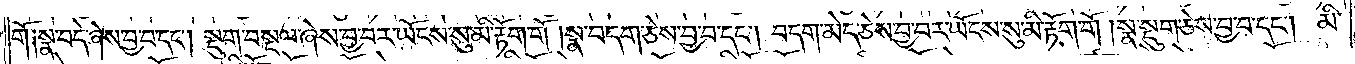གོ ༑སྣ་བདེ་ཞེས་བྱ་བ་དང༌། སྡུག་བསྔལ་ཞེས་བྱ་བར་ཡོངས་སུ་མི་རྟོག་གོ །སྣ་བདག་ཅེས་བྱ་བ་དང༌། བདག་མེད་ཅེས་བྱ་བར་ཡོངས་སུ་མི་རྟོག་གོ་༑སྣ་སྡུག་ཅེས་བྱ་བ་དང༌། མི་
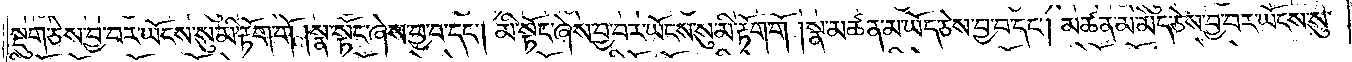སྡུག་ཅེས་བྱ་བར་ཡོངས་སུ་མི་རྟོག་གོ །སྣ་སྟོང་ཞེས་བྱ་བ་དང༌། མི་སྟོང་ཞེས་བྱ་བར་ཡོངས་སུ་མི་རྟོག་གོ །སྣ་མཚན་མ་ཡོད་ཅེས་བྱ་བ་དང༌། མཚན་མ་མེད་ཅེས་བྱ་བར་ཡོངས་སུ་
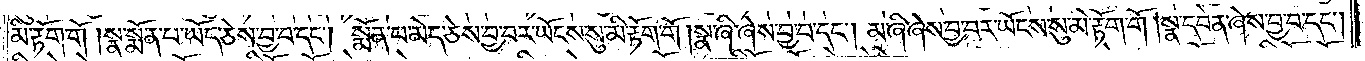མི་རྟོག་གོ །སྣ་སྨོན་པ་ཡོད་ཅེས་བྱ་བ་དང༌། སྨོན་པ་མེད་ཅེས་བྱ་བར་ཡོངས་སུ་མི་རྟོག་གོ །སྣ་ཞི་ཞེས་བྱ་བ་དང༌། མ་ཞི་ཞེས་བྱ་བར་ཡོངས་སུ་མི་རྟོག་གོ །སྣ་དབེན་ཞེས་བྱ་བ་དང་
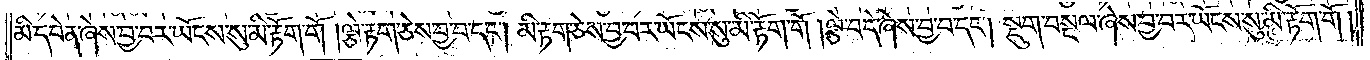མི་དབེན་ཞེས་བྱ་བར་ཡོངས་སུ་མི་རྟོག་གོ །ལྕེ་རྟག་ཅེས་བྱ་བ་དང༌། མི་རྟག་ཅེས་བྱ་བར་ཡོངས་སུ་མི་རྟོག་གོ །ལྕེ་བདེ་ཞེས་བྱ་བ་དང༌། སྡུག་བསྔལ་ཞེས་བྱ་བར་ཡོངས་སུ་མི་རྟོག་གོ།
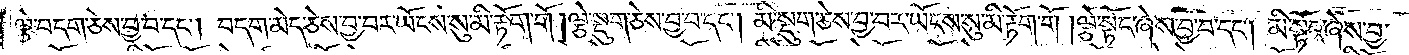ལྕེ་བདག་ཅེས་བྱ་བ་དང༌། བདག་མེད་ཅེས་བྱ་བར་ཡོངས་སུ་མི་རྟོག་གོ །ལྕེ་སྡུག་ཅེས་བྱ་བ་དང༌། མི་སྡུག་ཅེས་བྱ་བར་ཡོངས་སུ་མི་རྟོག་གོ །ལྕེ་སྟོང་ཞེས་བྱ་བ་དང༌། མི་སྟོང་ཞེས་བྱ་
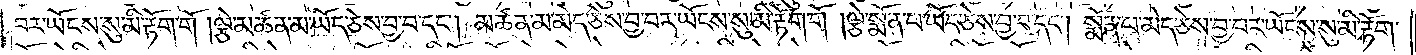བར་ཡོངས་སུ་མི་རྟོག་གོ །ལྕེ་མཚན་མ་ཡོད་ཅེས་བྱ་བ་དང༌། མཚན་མ་མེད་ཅེས་བྱ་བར་ཡོངས་སུ་མི་རྟོག་གོ །ལྕེ་སྨོན་པ་ཡོད་ཅེས་བྱ་བ་དང༌། སྨོན་པ་མེད་ཅེས་བྱ་བར་ཡོངས་སུ་མི་རྟོག་
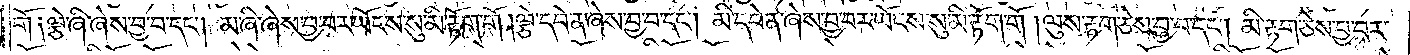གོ ༑ལྕེ་ཞི་ཞེས་བྱ་བ་དང༌། མ་ཞི་ཞེས་བྱ་བར་ཡོངས་སུ་མི་རྟོག་གོ །ལྕེ་དབེན་ཞེས་བྱ་བ་དང༌། མི་དབེན་ཞེས་བྱ་བར་ཡོངས་སུ་མི་རྟོག་གོ །ལུས་རྟག་ཅེས་བྱ་བ་དང༌། མི་རྟག་ཅེས་བྱ་བར་
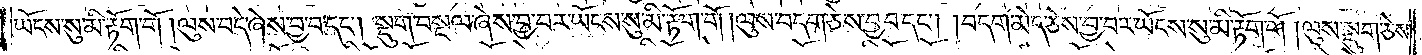ཡོངས་སུ་མི་རྟོག་གོ །ལུས་བདེ་ཞེས་བྱ་བ་དང༌། སྡུག་བསྔལ་ཞེས་བྱ་བར་ཡོངས་སུ་མི་རྟོག་གོ །ལུས་བདག་ཅེས་བྱ་བ་དང༌། བདག་མེད་ཅེས་བྱ་བར་ཡོངས་སུ་མི་རྟོག་གོ །ལུས་སྡུག་ཅེས་
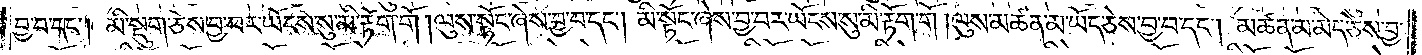བྱ་བ་དང༌། མི་སྡུག་ཅེས་བྱ་བར་ཡོངས་སུ་མི་རྟོག་གོ །ལུས་སྟོང་ཞེས་བྱ་བ་དང༌། མི་སྟོང་ཞེས་བྱ་བར་ཡོངས་སུ་མི་རྟོག་གོ །ལུས་མཚན་མ་ཡོད་ཅེས་བྱ་བ་དང༌། མཚན་མ་མེད་ཅེས་བྱ་
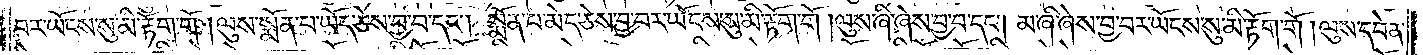བར་ཡོངས་སུ་མི་རྟོག་གོ །ལུས་སྨོན་པ་ཡོད་ཅེས་བྱ་བ་དང༌། སྨོན་པ་མེད་ཅེས་བྱ་བར་ཡོངས་སུ་མི་རྟོག་གོ །ལུས་ཞི་ཞེས་བྱ་བ་དང༌། མ་ཞི་ཞེས་བྱ་བར་ཡོངས་སུ་མི་རྟོག་གོ །ལུས་དབེན་
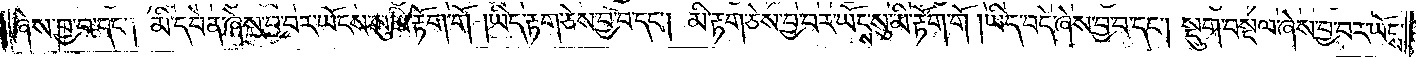ཞེས་བྱ་བ་དང༌། མི་དབེན་ཞེས་བྱ་བར་ཡོངས་སུ་མི་རྟོག་གོ །ཡིད་རྟག་ཅེས་བྱ་བ་དང༌། མི་རྟག་ཅེས་བྱ་བར་ཡོངས་སུ་མི་རྟོག་གོ །ཡིད་བདེ་ཞེས་བྱ་བ་དང༌། སྡུག་བསྔལ་ཞེས་བྱ་བར་ཡོངས་
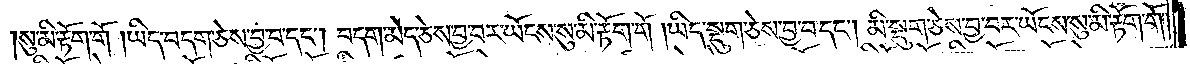སུ་མི་རྟོག་གོ །ཡིད་བདག་ཅེས་བྱ་བ་དང༌། བདག་མེད་ཅེས་བྱ་བར་ཡོངས་སུ་མི་རྟོག་གོ །ཡིད་སྡུག་ཅེས་བྱ་བ་དང༌། མི་སྡུག་ཅེས་བྱ་བར་ཡོངས་སུ་མི་རྟོག་གོ །
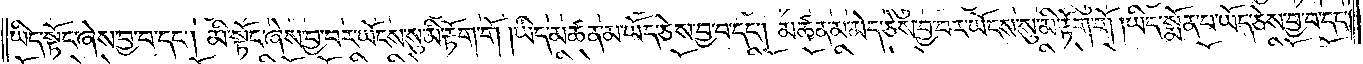ཡིད་སྟོང་ཞེས་བྱ་བ་དང༌། མི་སྟོང་ཞེས་བྱ་བར་ཡོངས་སུ་མི་རྟོག་གོ །ཡིད་མཚན་མ་ཡོད་ཅེས་བྱ་བ་དང༌། མཚན་མ་མེད་ཅེས་བྱ་བར་ཡོངས་སུ་མི་རྟོག་གོ །ཡིད་སྨོན་པ་ཡོད་ཅེས་བྱ་བ་དང༌།
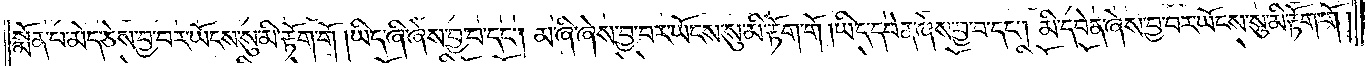སྨོན་པ་མེད་ཅེས་བྱ་བར་ཡོངས་སུ་མི་རྟོག་གོ །ཡིད་ཞི་ཞེས་བྱ་བ་དང༌། མ་ཞི་ཞེས་བྱ་བར་ཡོངས་སུ་མི་རྟོག་གོ །ཡིད་དབེན་ཞེས་བྱ་བ་དང༌། མི་དབེན་ཞེས་བྱ་བར་ཡོངས་སུ་མི་རྟོག་གོ་
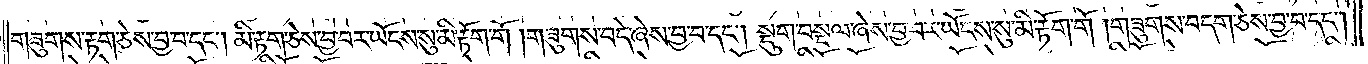གཟུགས་རྟག་ཅེས་བྱ་བ་དང༌། མི་རྟག་ཅེས་བྱ་བར་ཡོངས་སུ་མི་རྟོག་གོ །གཟུགས་བདེ་ཞེས་བྱ་བ་དང༌། སྡུག་བསྔལ་ཞེས་བྱ་བར་ཡོངས་སུ་མི་རྟོག་གོ །གཟུགས་བདག་ཅེས་བྱ་བ་དང༌།
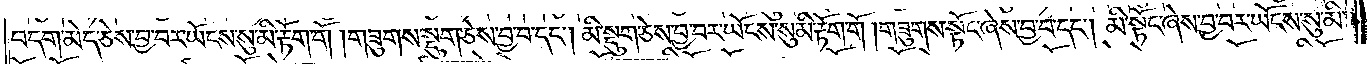བདག་མེད་ཅེས་བྱ་བར་ཡོངས་སུ་མི་རྟོག་གོ །གཟུགས་སྡུག་ཅེས་བྱ་བ་དང༌། མི་སྡུག་ཅེས་བྱ་བར་ཡོངས་སུ་མི་རྟོག་གོ །གཟུགས་སྟོང་ཞེས་བྱ་བ་དང༌། མི་སྟོང་ཞེས་བྱ་བར་ཡོངས་སུ་མི་
